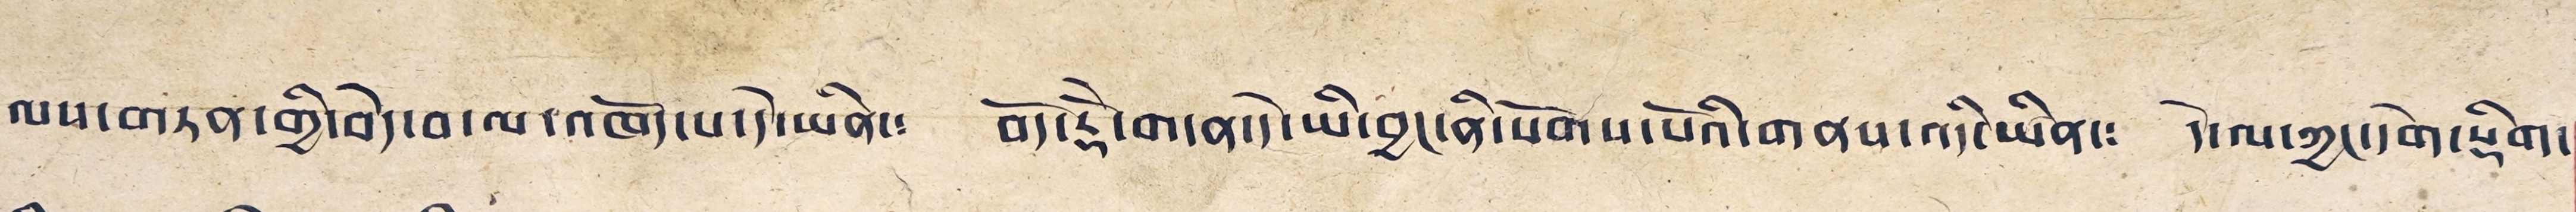ལས་གཏན་གྱི་བདེ་བ་ལ་འཁོད་པ་དེ་ཡིན་༴ བོད་རྡཻ་གདན་དེ་ཡི་བྱང་ནི་སོགས་པོའི་གནས་འདི་ཡིན་༴ དེ་ལ་ཀྱང་དགེ་སྡིག་
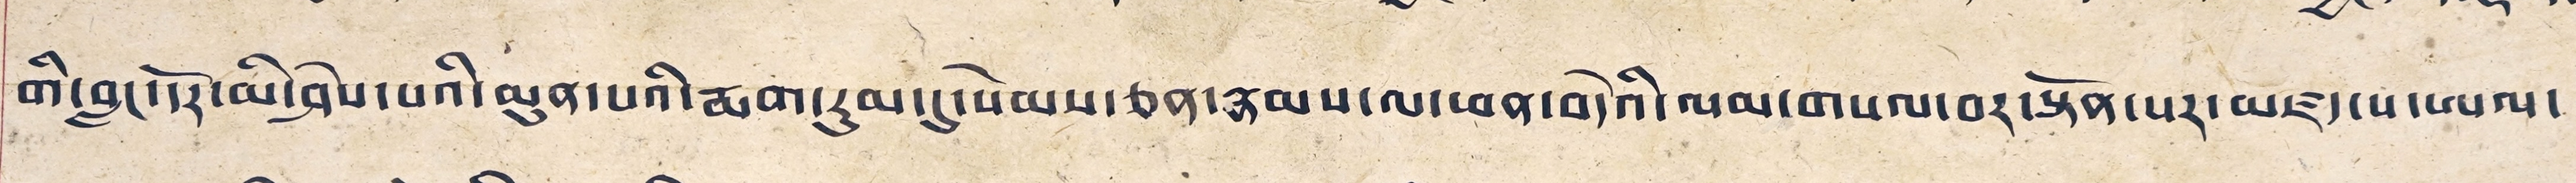གི་བླང་དོར་མི་ཤེས་པའི་མུན་པའི་རྨག་རུམ་དུ་སེམས་ཅན་རྣམས་ལ་ཕན་བདེའི་ལམ་གསལ་བར་སྟོན་པར་མཛད་པ་ཨལ་
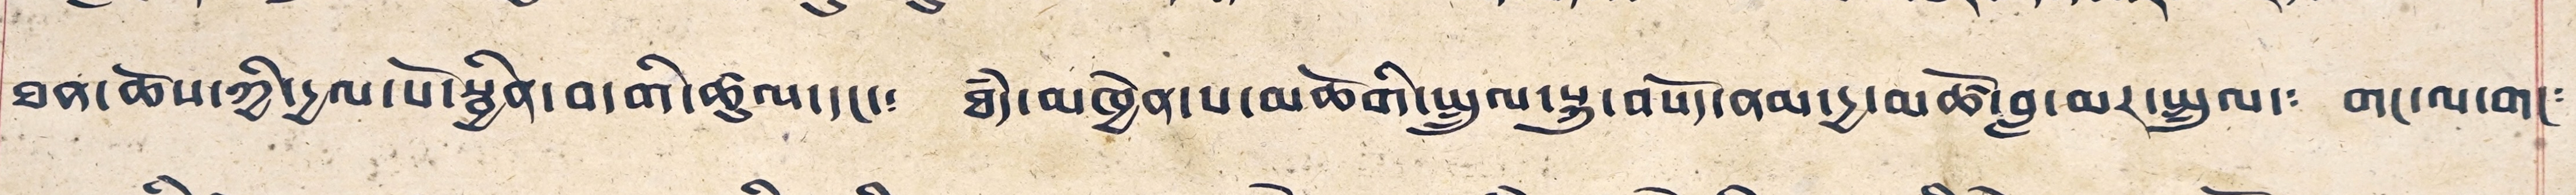ཐན་ཆོས་ཀྱི་དྱལ་པོ་སྦྱིན་བདགི་ཚུལ་དང་༴ ཐཾད་མགྱེན་པ་མཚོགི་སྤྲུལ་སྐུ་བསོད་ནམ་དྱ་མཚོ་བླ་མར་སྤྲུལ་༴ གང་ལ་གང༴
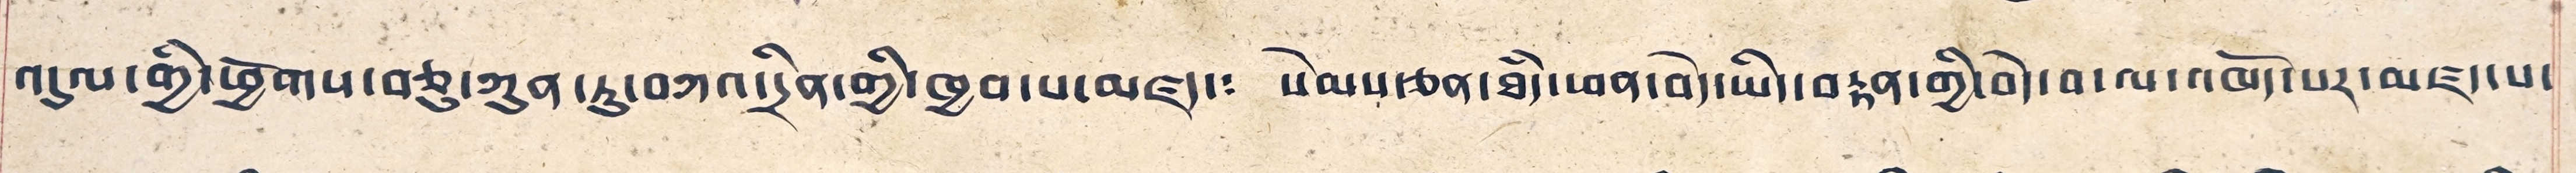འདུལ་གྱི་ཕྱོགས་བཅུ་ཀུན་ཏུ་བཀའ་དྲིན་གྱི་ཁྱབ་པ་མཛད་༴ སེམས་ཅན་ཐཾད་ཕན་བདེ་ཡིད་བརྟན་གྱི་བདེ་བ་ལ་འཁོད་པར་མཛད་པ་
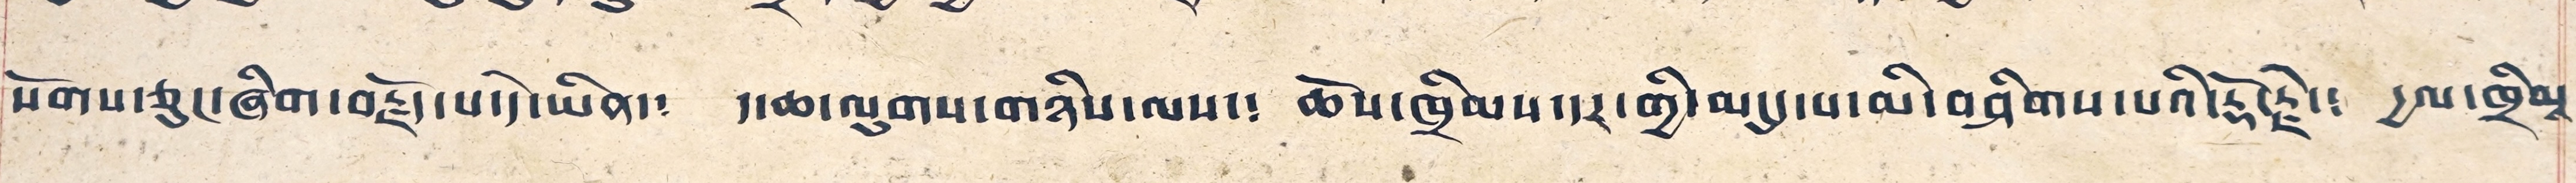སོགས་ཅུང་ཞིག་བརྗོད་པ་དེ་ཡིན་༴ ད་ཆ་ལུགས་གཉིས་ལས་༴ ཆོས་ཁྲིམས་དར་གྱི་མདུད་པ་མི་བཤིགས་པའི་རྡོ་རྗེ་། དྱལ་ཁྲིམས་
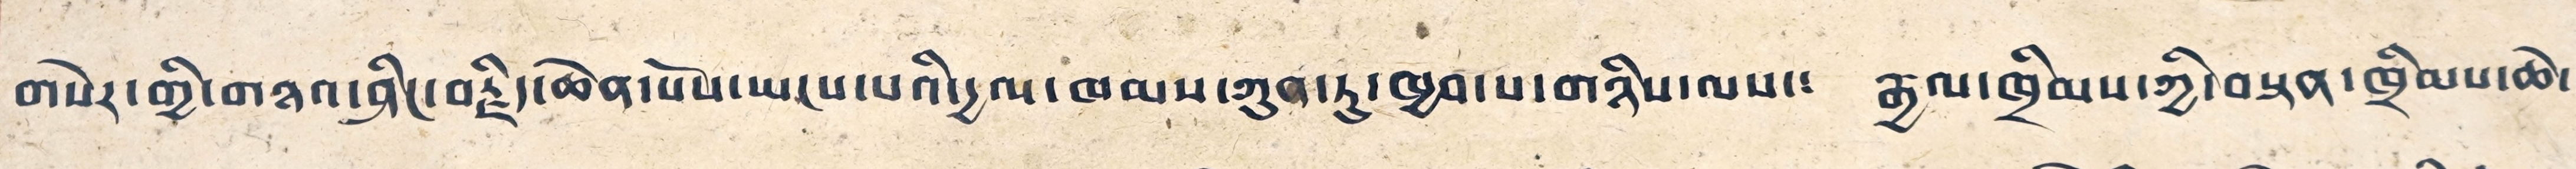གསེར་གྱི་གཉའ་ཤིང་བརྗོད་ཆེན་པོས་ཡངས་པའི་དྱལ་ཁམས་ཀུན་ཏུ་ཁྱབ་པ་གཉིས་ལས་། རྒྱལ་ཁྲིམས་ཀྱི་བསྟན་ཁྲིམས་ཆེ་
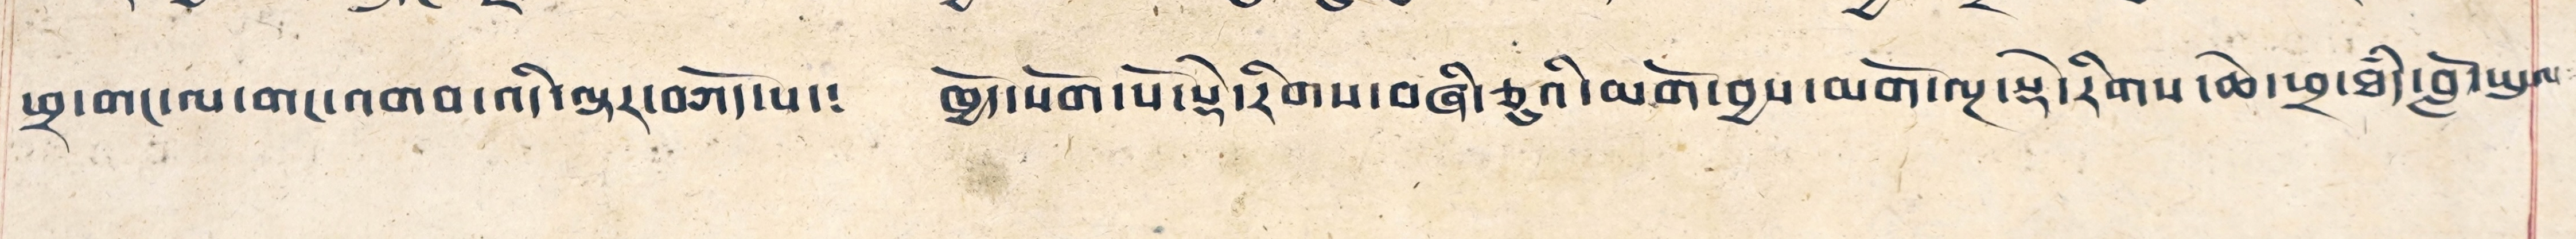ཕྲ་གང་ལ་གང་འགབ་འདི་ལྟར་བཀོད་པ་༴ ཁྱོད་སོག་པོ་སྡེ་རིགས་བཞི་ཅུའི་མགོ་བྱས་མགོ་ལྔ་སྡེ་རིགས་ཆེ་ཕྲ་ཐཾད་བློ་ཡུལ་
